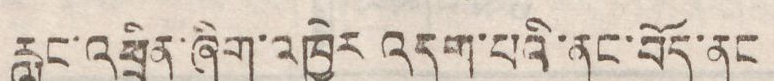རླུང་འཕྲིན་ཞིག་འཁྱེར འདུག་པའི་ནང་བོད་ནང
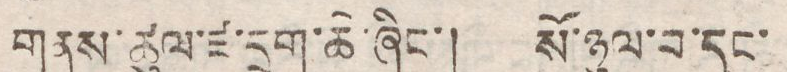གནས་ཚུལ་ཛ་དྲག་ཆེ་ཞིང་། སོ་ཉུང་བ་དང་
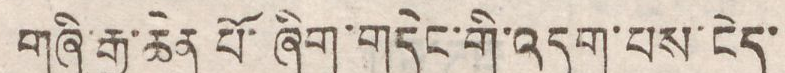གཞི་རྒྱ་ཆེན པོ་ཞིག་གདེང་གི་འདུག་པས་ངེད་
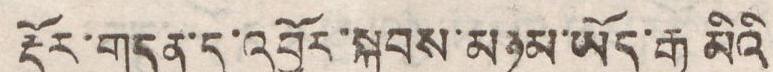རྡོར་གདན་དུ་འབྱོར་སྐབས་མཉམ་ཡོད་རྒྱ མིའི
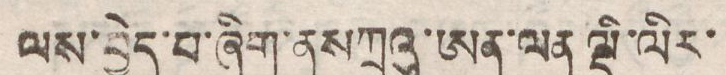ལས་བྱེད་པ་ཞིག་ནས ཀྲའུ་ཨན་ལན ལྡི་ལིར་
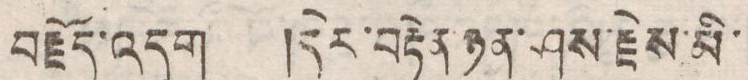བརྗོད་འདུག །དེར་བརྟེན་ཉན་ཤས་རྗེས་མི་
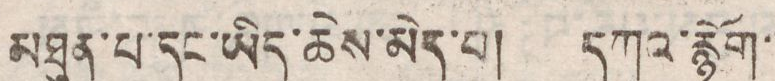མཐུན་པ་དང་ཡིད་ཆེས་མེད་པ། དཀའ་རྙོག་་
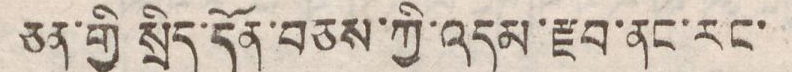ཅན་གྱི སྲིད་དོན་བཅས་ཀྱི་འདམ་རྫབ་ནང་རང་
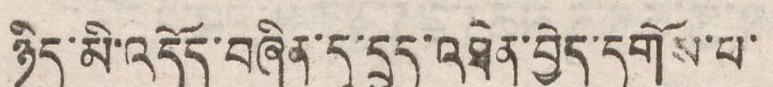ཉིད་མི་འདོད་བཞིན་དུ་དྲུང་འཐེན་བྱེད་དགོས་པ་
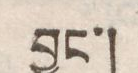བྱུང་།
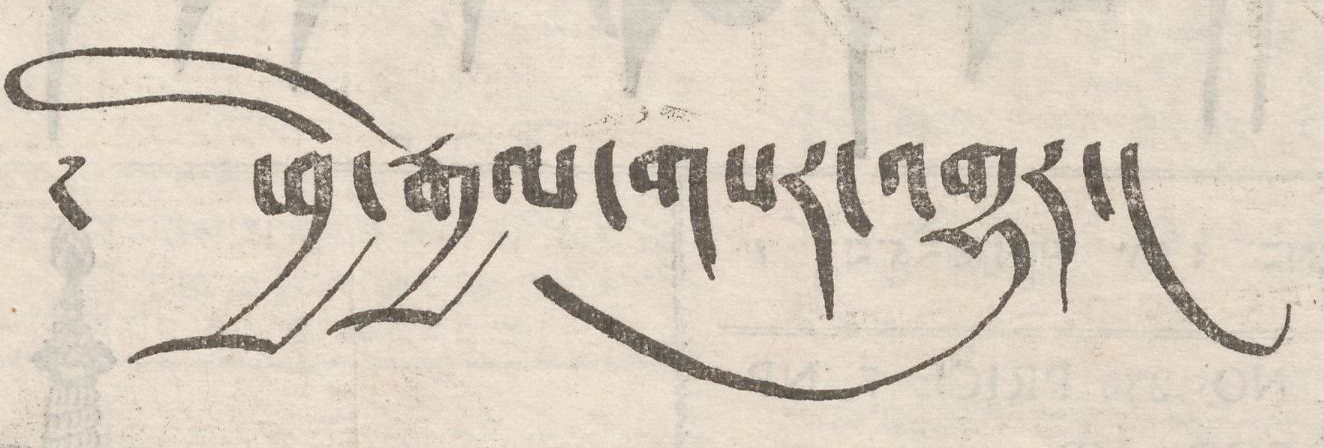༄ ཕྱི་རྒྱལ་གསར་འགྱུར།
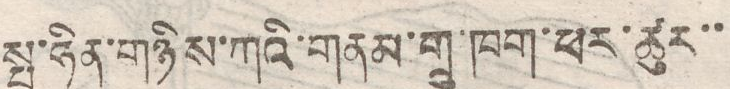སྤ་ཧིན་གཉིས་ཀའི་གནམ་གྲུ་ཁག་ཕར་ཚུར་་
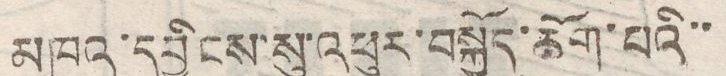མཁས་དབྱིངས་སུ་འཕུར་བསྐྱོད་ཆོག་པའི་་
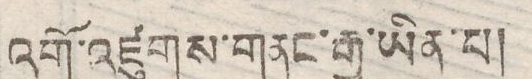འགོ་འཛུགས་གནང་རྒྱུ་ཡིན་པ།
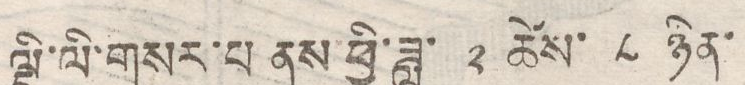ལྡི་ལི་གསར་པ ནས་ཕྱི་ཟླ་ ༢ ཚེས་༨ ཉིན་
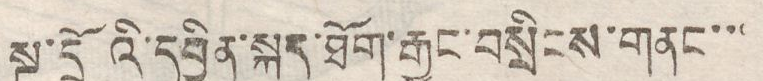སྔ་དྲོའི་དབྱིན་སྐད་ཐོག་རྒྱང་བསྲིངས་གནང་་་
